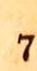7
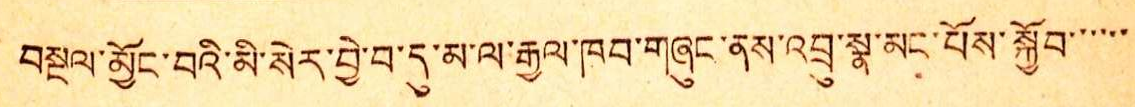བསྔལ་མྱོང་བའི་མི་སེར་བྱེ་བ་དུ་མ་ལ་རྒྱལ་ཁབ་གཞུང་ནས་འབྲུ་སྣ་མང་པོས་སྐྱོབ་་་་་་
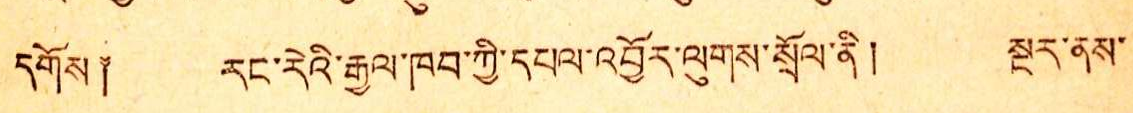དགོས༐ རང་རེའི་རྒྱལ་ཁབ་ཀྱི་དཔལ་འབྱོར་ལུགས་སྲོལ་ནི ། སྔར་ནས་
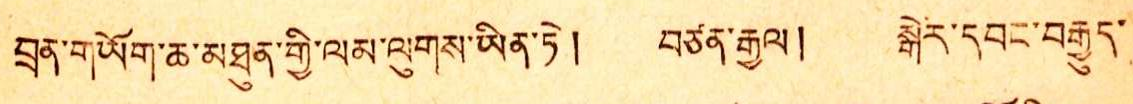བྲན་གཡོག་ཆ་མཐུན་གྱི་ལམ་ལུགས་ཡིན་ཏེ། བཙན་རྒྱལ། སྒེར་དབང་བརྒྱུད་
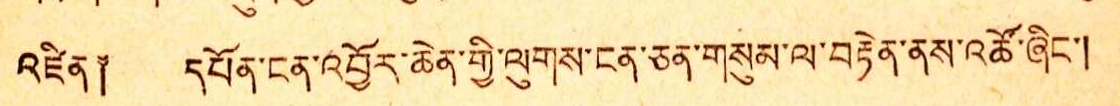འཛིན༐ དཔོན་ངན་འབྱོར་ཆེན་གྱི་ལུགས་ངན་ཅན་གསུམ་ལ་བརྟེན་ནས་འཚོ་ཞིང་།
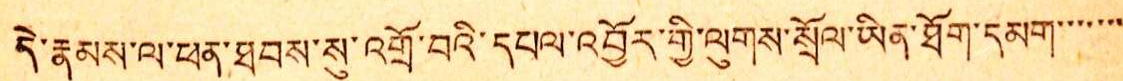དེ་རྣམས་ལ་ཕན་ཐབས་སུ་འགྲོ་བའི་དཔལ་འབྱོར་གྱི་བུགས་སྲོལ་ཡིན་ཐོག་དམག་་་་་་་
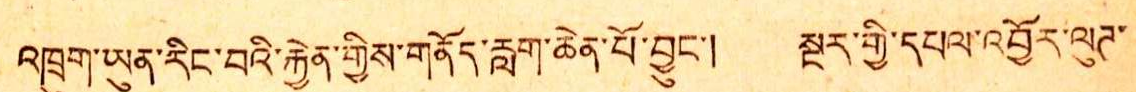འཁྲུག་ཡུན་རིང་བའི་རྐྱེན་གྱིས་གནོད་རླག་ཆེན་པོ་བྱུང་། སྔར་གྱི་དཔལ་འབྱོར་ལུཊ་
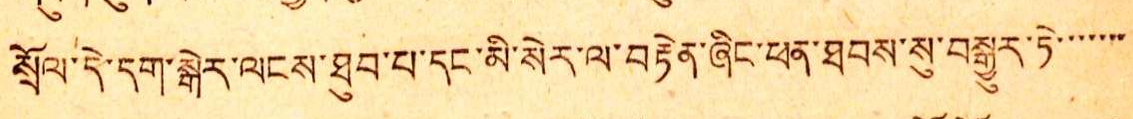སྲོལ་དེ་དག་སྒེར་ལངས་ཐུབ་པ་དང་མི་སེར་ལ་བརྟེན་ཞིང་ཕན་ཐབས་སུ་བསྒྱུར་ཏེ་་་་་་་
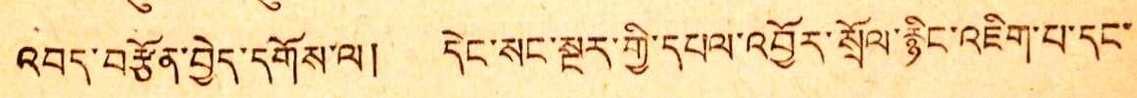འབན་བརྩོན་བྱེད་དགོས་ལ། དེང་སང་སྔར་གྱི་དཔལ་འབྱོར་སྲོལ་རྙིང་འཇིག་པ་དང་
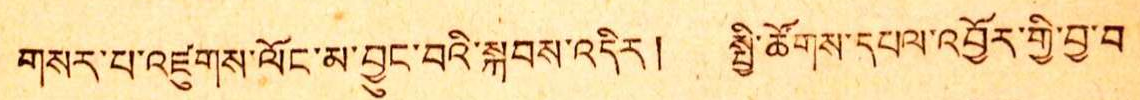གསར་པ་འཛུགས་ལོང་མ་བྱུང་བའི་སྐབས་འདིར། སྤྱི་ཚོགས་དཔལ་འབྱོར་གྱི་བྱ་བ
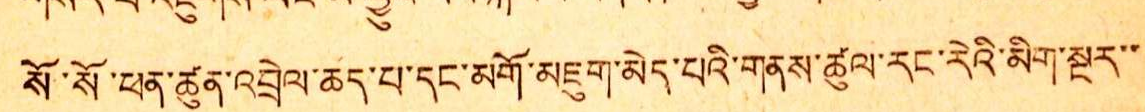སོ་སོ་ཕན་ཚུན་འབྲེལ་ཆད་པ་དང་མགོ་མཇུག་མེད་པའི་གནས་ཚུལ་རང་རེའི་མིག་སྔར་་
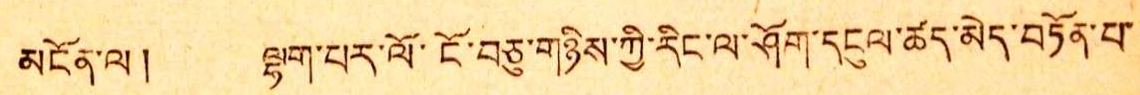མངོན་ལ། ལྷག་པར་ལོ་ངོ་བཅུ་གཉིས་ཀྱི་རིང་ལ་ཤོག་དངུལ་ཚད་མེད་བཏོན་པ་
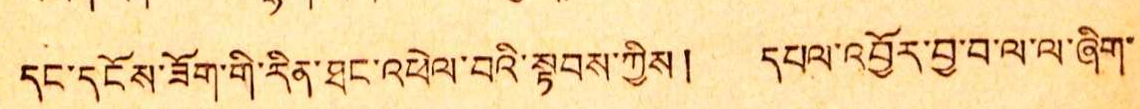དང་དངོས་ཟོག་གི་རིན་ཐང་འཕེལ་བའི་སྟབས་ཀྱིས། དཔལ་འབྱོར་བྱ་བ་ལ་ལ་ཞིག་
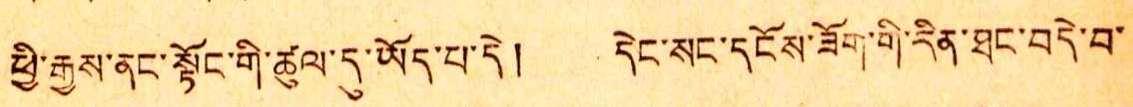ཕྱི་རྒྱས་ནང་སྟོང་གི་ཚུལ་དུ་ཡོད་པ་དེ། དེང་སང་དངོས་ཟོག་གི་རིན་ཐང་བདེ་བ་
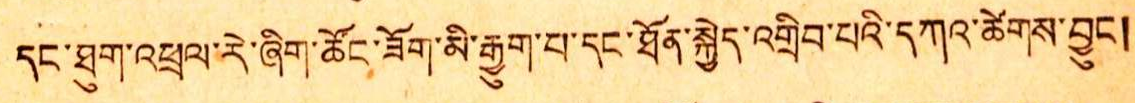དང་ཐུག་འཕྲལ་རེ་ཞིག་ཚོང་ཟོག་མི་རྒྱུག་པ་དང་ཐོན་སྐྱེད་འགྲིབ་པའི་དཀའ་ཚེགས་བྱུང།
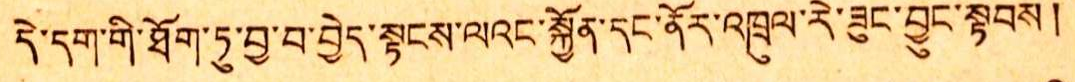དེ་དག་གི་ཐོག་ཏུ་བྱ་བ་བྱེད་སྟངས་ལའང་སྐྱོན་དང་ནོར་འཁྲུལ་རེ་ཟུང་བྱུང་སྟབས།
